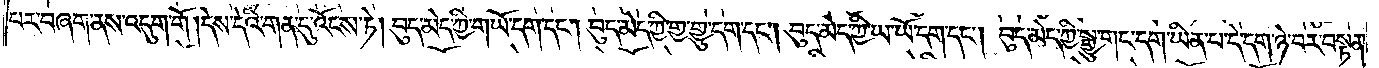པར་བཞག་ནས་འདུག་གོ །དེས་དེའི་གན་དུ་འོངས་ཏེ། བུད་མེད་ཀྱི་གཡོ་དག་དང༌། བུད་མེད་ཀྱི་གྱ་གྱུ་དག་དང༌། བུད་མེད་ཀྱི་ཡ་ཡོ་དག་དང༌། བུད་མེད་ཀྱི་སྒྱུ་གང་དག་ཡིན་པ་དེ་དག་ཉེ་བར་བསྟན་
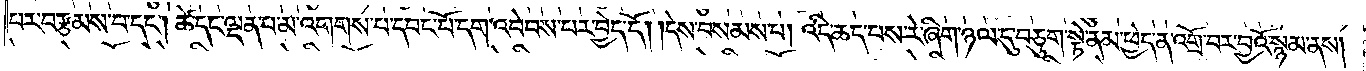པར་བརྩམས་པ་དང༌། ཚེ་དང་ལྡན་པ་མ་འགགས་པ་དབང་པོ་དག་འབེབས་པར་བྱེད་དོ། །དེས་བསམས་པ། འདི་ཆད་པས་རེ་ཞིག་ཉལ་དུ་བཅུག་སྟེ་ནམ་ཕྱེད་ན་འགྲོ་བར་བྱའོ་སྙམ་ནས།
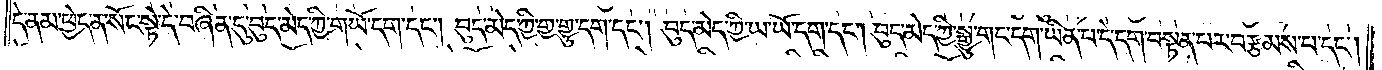དེ་ནམ་ཕྱེད་ན་སོང་སྟེ་དེ་བཞིན་དུ་བུད་མེད་ཀྱི་གཡོ་དག་དང༌། བུད་མེད་ཀྱི་གྱ་གྱུ་དག་དང༌། བུད་མེད་ཀྱི་ཡ་ཡོ་དག་དང༌། བུད་མེད་ཀྱི་སྒྱུ་གང་དག་ཡིན་པ་དེ་དག་བསྟན་པར་བརྩམས་པ་དང༌།
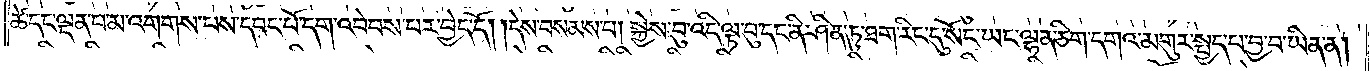ཚེ་དང་ལྡན་པ་མ་འགགས་པས་དབང་པོ་དག་འབེབས་པར་བྱེད་དོ། །དེས་བསམས་པ། སྐྱེས་བུ་འདི་ལྟ་བུ་དང་ནི་ཤིན་ཏུ་ཐག་རིང་དུ་སོང་ཡང་ལྷན་ཅིག་དགའ་མགུར་སྤྱད་པ་བྱ་བ་ཡིན་ན།
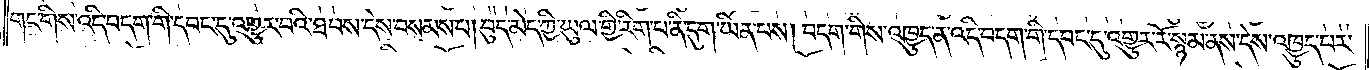གང་གིས་འདི་བདག་གི་དབང་དུ་འགྱུར་བའི་ཐབས་དེས་བསམས་པ། བུད་མེད་ཀྱི་ཡུལ་གྱི་རིག་པ་ནི་དུག་ཡིན་པས། བདག་གིས་འཁྱུད་ན་འདི་བདག་གི་དབང་དུ་འགྱུར་རོ་སྙམ་ནས་དེས་འཁྱུད་པར་
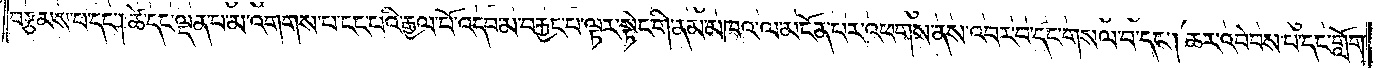བརྩམས་པ་དང༌། ཚེ་དང་ལྡན་པ་མ་འགགས་པ་ངང་པའི་རྒྱལ་པོ་འདབ་མ་བརྐྱང་པ་ལྟར་སྟེང་གི་ནམ་མཁའ་ལ་མངོན་པར་འཕགས་ནས་འབར་བ་དང་གསལ་བ་དང༌། ཆར་འབེབས་པ་དང་གློག་
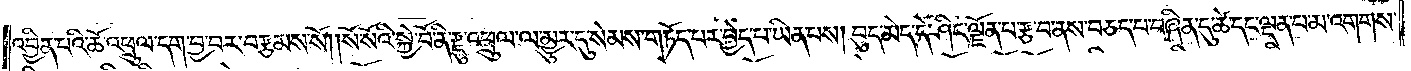འབྱིན་པའི་ཆོ་འཕྲུལ་དག་བྱ་བར་བརྩམས་སོ། །སོ་སོའི་སྐྱེ་བོ་ནི་རྫུ་འཕྲུལ་ལ་མྱུར་དུ་སེམས་གཏོད་པར་བྱེད་པ་ཡིན་པས། བུད་མེད་དེ་ཤིང་ལྗོན་པ་རྩ་བ་ནས་བཅད་པ་བཞིན་དུ་ཚེ་དང་ལྡན་པ་མ་འགགས་
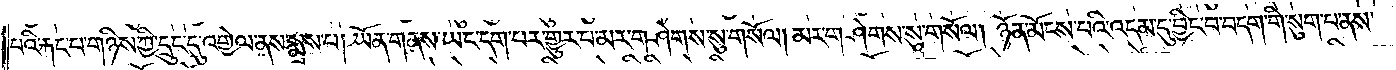པའི་རྐང་པ་གཉིས་ཀྱི་དྲུང་དུ་འགྱེལ་ནས་སྨྲས་པ། ཡོན་གནས་ཡང་དག་པར་གྱུར་པ་མར་གཤེགས་སུ་གསོལ། མར་གཤེགས་སུ་གསོལ། ཉོན་མོངས་པའི་འདམ་དུ་བྱིང་བ་བདག་གི་སུག་པ་ནས་
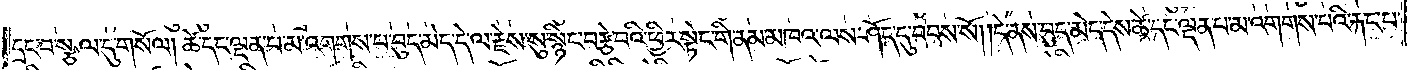དྲང་བ་སྩལ་དུ་གསོལ། ཚེ་དང་ལྡན་པ་མ་འགགས་པ་བུད་མེད་དེ་ལ་རྗེས་སུ་སྙིང་བརྩེ་བའི་ཕྱིར་སྟེང་གི་ནམ་མཁའ་ལས་ཤོད་དུ་བབས་སོ། །དེ་ནས་བུད་མེད་དེས་ཚེ་དང་ལྡན་པ་མ་འགགས་པའི་རྐང་པ་
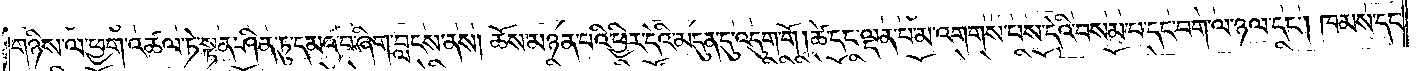གཉིས་ལ་ཕྱག་འཚལ་ཏེ་སྟན་ཤིན་ཏུ་དམའ་བ་ཞིག་བླངས་ནས། ཆོས་མཉན་པའི་ཕྱིར་དེའི་མདུན་དུ་འདུག་གོ །ཚེ་དང་ལྡན་པ་མ་འགགས་པས་དེའི་བསམ་པ་དང་བག་ལ་ཉལ་དང༌། ཁམས་དང་
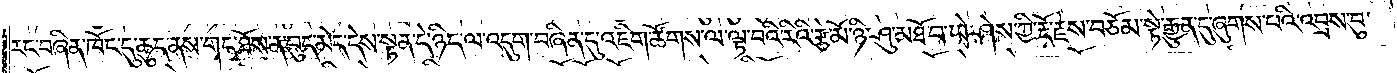རང་བཞིན་ཁོང་དུ་ཆུད་ནས་གང་ཐོས་ན་བུད་མེད་དེས་སྟན་དེ་ཉིད་ལ་འདུག་བཞིན་དུ་འཇིག་ཚོགས་ལ་ལྟ་བའི་རིའི་རྩེ་མོ་ཉི་ཤུ་མཐོ་བ་ཡེ་ཤེས་ཀྱི་རྡོ་རྗེས་བཅོམ་སྟེ་རྒྱུན་དུ་ཞུགས་པའི་འབྲས་བུ་
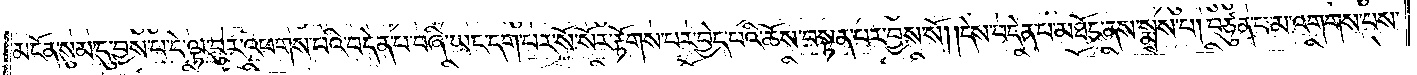མངོན་སུམ་དུ་བྱས་པ་དེ་ལྟ་བུར་འཕགས་པའི་བདེན་པ་བཞི་ཡང་དག་པར་སོ་སོར་རྟོགས་པར་བྱེད་པའི་ཆོས་བསྟན་པར་བྱས་སོ། །དེས་བདེན་པ་མཐོང་ནས་སྨྲས་པ། བཙུན་པ་མ་འགགས་པས་
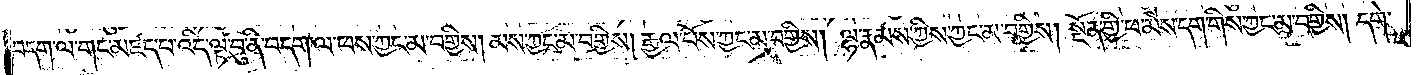བདག་ལ་གང་མཛད་པ་འདི་ལྟ་བུ་ནི་བདག་ལ་ཕས་ཀྱང་མ་བགྱིས། མས་ཀྱང་མ་བགྱིས། རྒྱལ་པོས་ཀྱང་མ་བགྱིས། ལྷ་རྣམས་ཀྱིས་ཀྱང་མ་བགྱིས། སྔོན་གྱི་ཕ་མེས་དག་གིས་ཀྱང་མ་བགྱིས། དགེ་
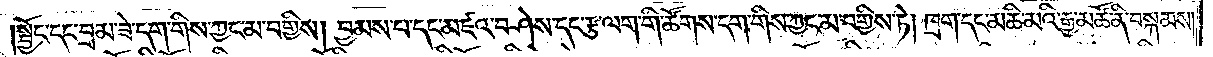སྦྱོང་དང་བྲམ་ཟེ་དག་གིས་ཀྱང་མ་བགྱིས། བྱམས་པ་དང་མཛའ་བཤེས་དང་རྩ་ལག་གི་ཚོགས་དག་གིས་ཀྱང་མ་བགྱིས་ཏེ། ཁྲག་དང་མཆི་མའི་རྒྱ་མཚོ་ནི་བསྐམས།
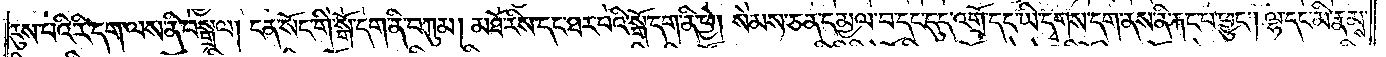རུས་པའི་རི་དག་ལས་ནི་བསྒྲལ། ངན་སོང་གི་སྒོ་དག་ནི་བཀུམ། མཐོ་རིས་དང་ཐར་པའི་སྒོ་དག་ནི་ཕྱེ། སེམས་ཅན་དམྱལ་བ་དང་དུད་འགྲོ་དང་ཡི་དྭགས་དག་ནས་ནི་རྐང་པ་ཕྱུང༌། ལྷ་དང་མི་རྣམས་
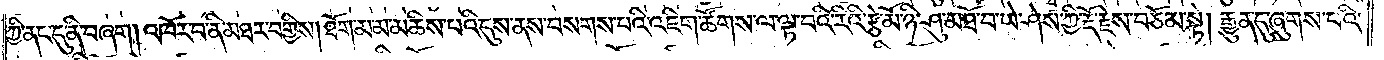ཀྱི་ནང་དུ་ནི་བཞག །འཁོར་བ་ནི་མཐར་བགྱིས། ཐོག་མ་མ་མཆིས་པའི་དུས་ནས་བསགས་པའི་འཇིག་ཚོགས་ལ་ལྟ་བའི་རིའི་རྩེ་མོ་ཉི་ཤུ་མཐོ་བ་ཡེ་ཤེས་ཀྱི་རྡོ་རྗེས་བཅོམ་སྟེ། རྒྱུན་དུ་ཞུགས་པའི་
